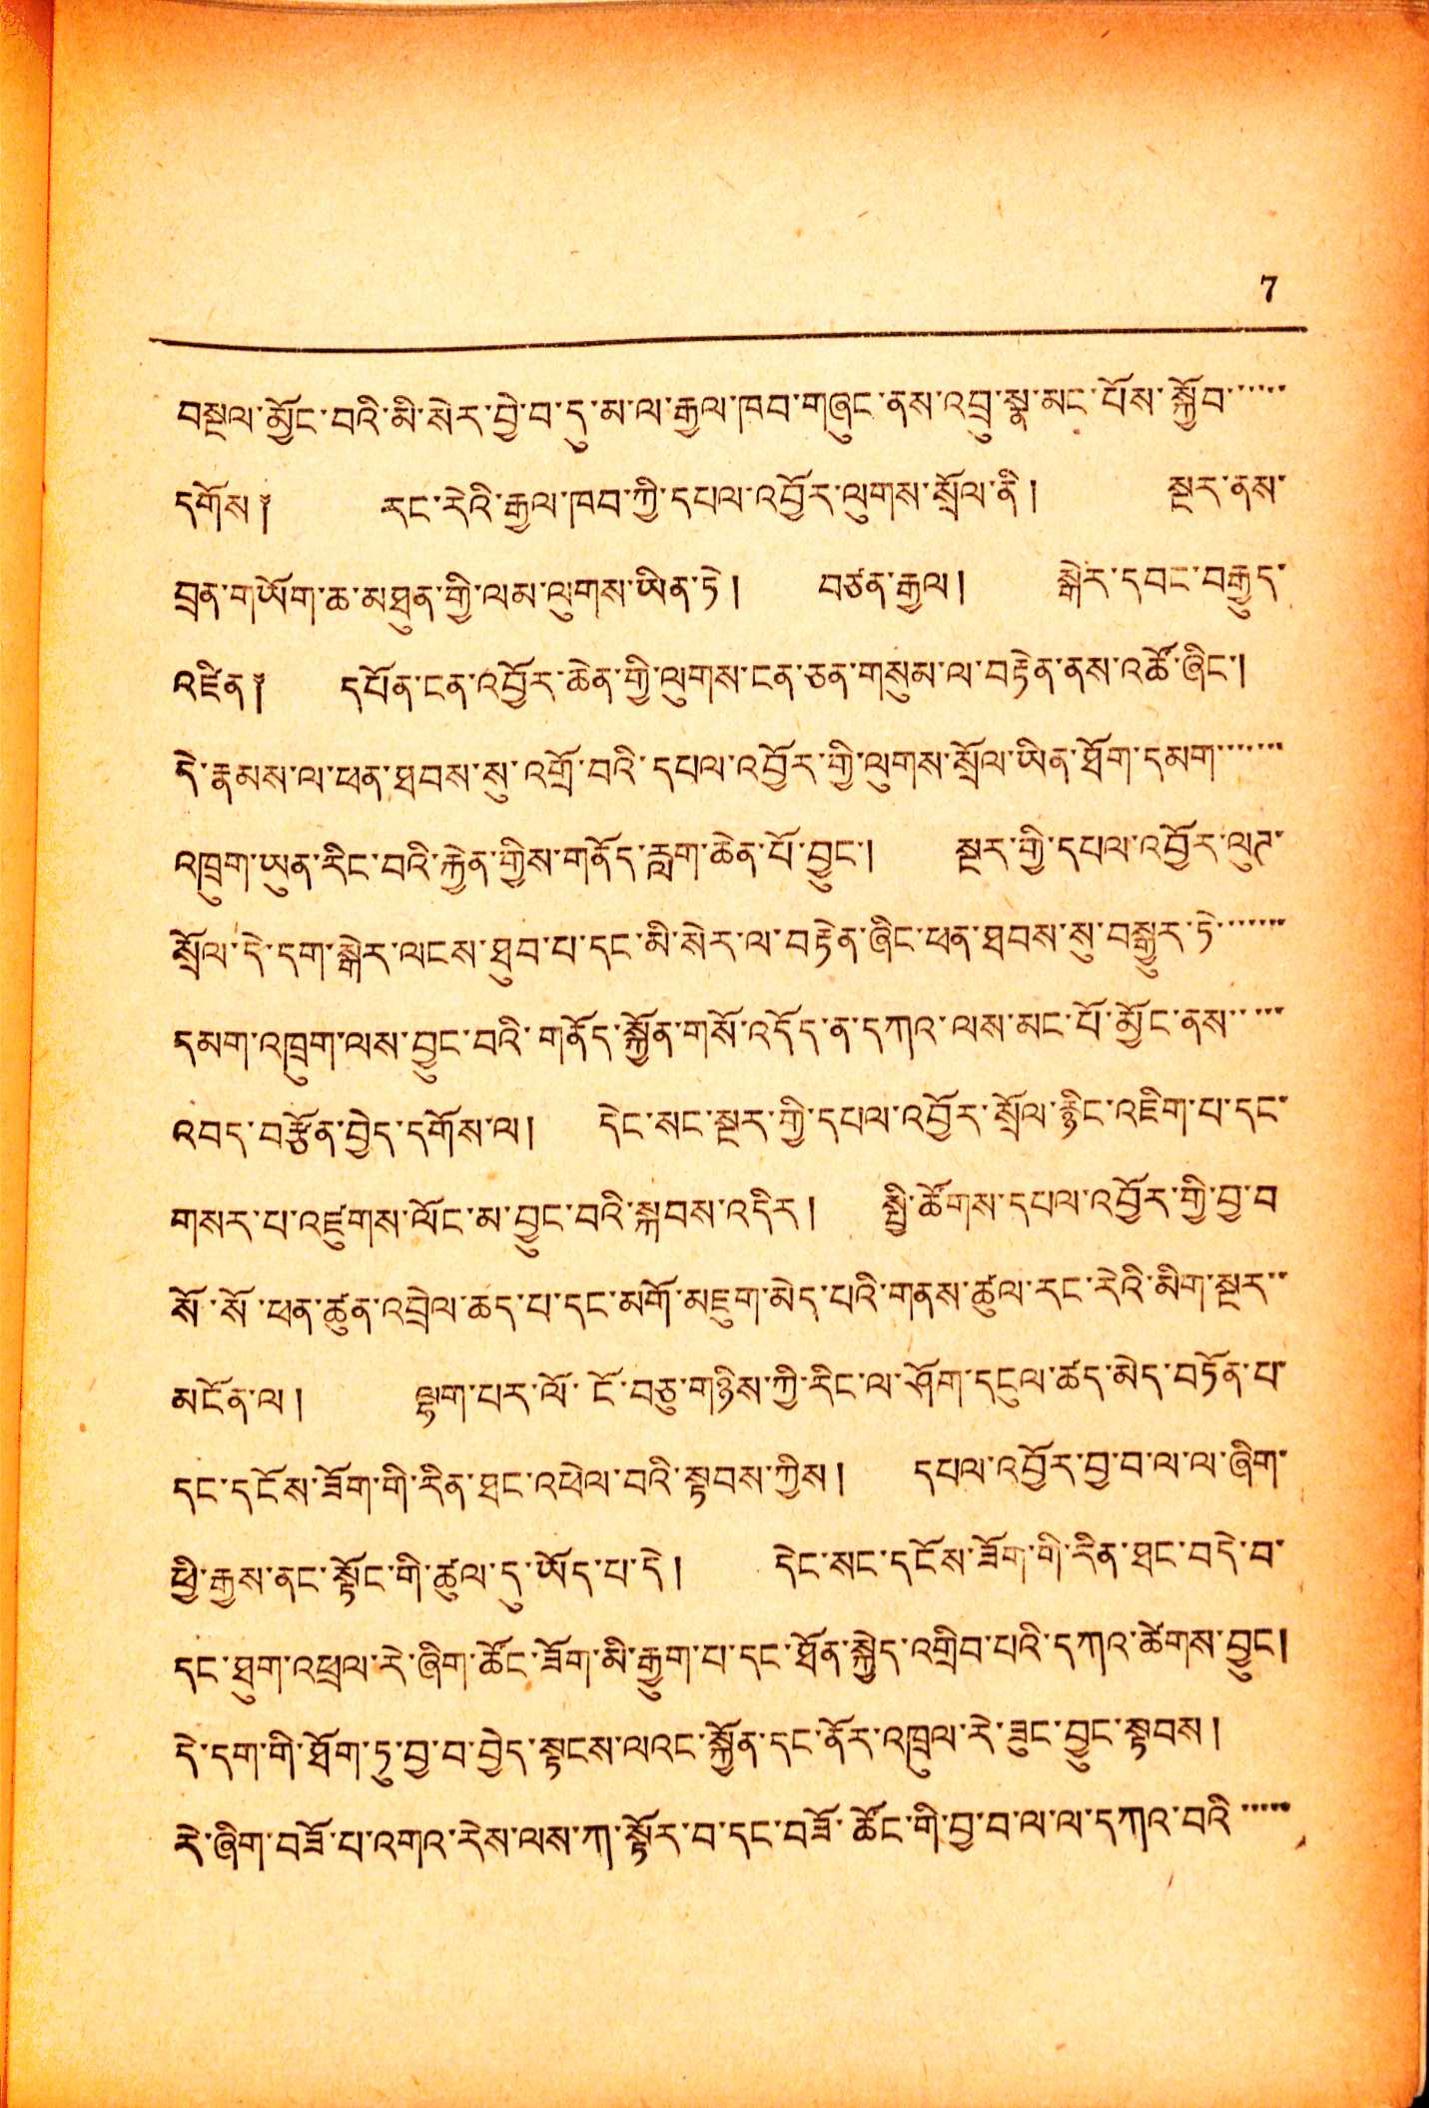7
བསྔལ་མྱོང་བའི་མི་སེར་བྱེ་བ་དུ་མ་ལ་རྒྱལ་ཁབ་གཞུང་ནས་འབྲུ་སྣ་མང་པོས་སྐྱོབ་་་་་་
དགོས༐ རང་རེའི་རྒྱལ་ཁབ་ཀྱི་དཔལ་འབྱོར་ལུགས་སྲོལ་ནི ། སྔར་ནས་
བྲན་གཡོག་ཆ་མཐུན་གྱི་ལམ་ལུགས་ཡིན་ཏེ། བཙན་རྒྱལ། སྒེར་དབང་བརྒྱུད་
འཛིན༐ དཔོན་ངན་འབྱོར་ཆེན་གྱི་ལུགས་ངན་ཅན་གསུམ་ལ་བརྟེན་ནས་འཚོ་ཞིང་།
དེ་རྣམས་ལ་ཕན་ཐབས་སུ་འགྲོ་བའི་དཔལ་འབྱོར་གྱི་བུགས་སྲོལ་ཡིན་ཐོག་དམག་་་་་་་
འཁྲུག་ཡུན་རིང་བའི་རྐྱེན་གྱིས་གནོད་རླག་ཆེན་པོ་བྱུང་། སྔར་གྱི་དཔལ་འབྱོར་ལུཊ་
སྲོལ་དེ་དག་སྒེར་ལངས་ཐུབ་པ་དང་མི་སེར་ལ་བརྟེན་ཞིང་ཕན་ཐབས་སུ་བསྒྱུར་ཏེ་་་་་་་
དམག་འཁྲུག་ལས་བྱུང་བའི་གནོད་སྐྱོན་གསོ་འདོད་ན་དཀའ་ལས་མང་པོ་མྱོང་ནས་་་་་
འབན་བརྩོན་བྱེད་དགོས་ལ། དེང་སང་སྔར་གྱི་དཔལ་འབྱོར་སྲོལ་རྙིང་འཇིག་པ་དང་
གསར་པ་འཛུགས་ལོང་མ་བྱུང་བའི་སྐབས་འདིར། སྤྱི་ཚོགས་དཔལ་འབྱོར་གྱི་བྱ་བ
སོ་སོ་ཕན་ཚུན་འབྲེལ་ཆད་པ་དང་མགོ་མཇུག་མེད་པའི་གནས་ཚུལ་རང་རེའི་མིག་སྔར་་
མངོན་ལ། ལྷག་པར་ལོ་ངོ་བཅུ་གཉིས་ཀྱི་རིང་ལ་ཤོག་དངུལ་ཚད་མེད་བཏོན་པ་
དང་དངོས་ཟོག་གི་རིན་ཐང་འཕེལ་བའི་སྟབས་ཀྱིས། དཔལ་འབྱོར་བྱ་བ་ལ་ལ་ཞིག་
ཕྱི་རྒྱས་ནང་སྟོང་གི་ཚུལ་དུ་ཡོད་པ་དེ། དེང་སང་དངོས་ཟོག་གི་རིན་ཐང་བདེ་བ་
དང་ཐུག་འཕྲལ་རེ་ཞིག་ཚོང་ཟོག་མི་རྒྱུག་པ་དང་ཐོན་སྐྱེད་འགྲིབ་པའི་དཀའ་ཚེགས་བྱུང།
དེ་དག་གི་ཐོག་ཏུ་བྱ་བ་བྱེད་སྟངས་ལའང་སྐྱོན་དང་ནོར་འཁྲུལ་རེ་ཟུང་བྱུང་སྟབས།
རེ་ཞིག་བཟོ་པ་འགའ་རེས་ལས་ཀ་སྟོར་བ་དང་བཟོ་ཚོང་གི་བྱ་བ་ལ་ལ་དཀའ་བའི་་་་་
